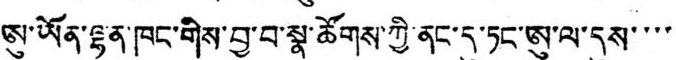ཨུ་ཡོན་ལྷན་ཁང་གིས་བྱ་བ་སྣ་ཚོགས་ཀྱི་ནང་དུ་ཏང་ཨུ་ལ་དུས་་་་
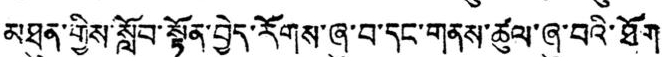མཐུན་གྱིས་སློབ་སྟོན་བྱེད་རོགས་ཞུ་བ་དང་གནས་ཚུལ་ཞུ་བའི་ཐོག
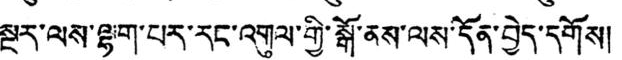སྔར་ལས་ལྷག་པར་རང་འགུལ་གྱི་སྒོ་ནས་ལས་དོན་བྱེད་དགོས།
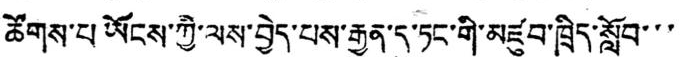ཚོགས་པ་ཡོངས་ཀྱི་ལས་བྱེད་པས་རྒྱུན་དུ་ཏང་གི་མཛུབ་ཁྲིད་སློབ་་་
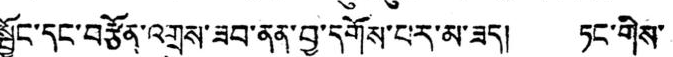སྦྱོང་དང་བརྩོན་འགྲུས་ཟབ་ནན་བྱ་དགོས་པར་མ་ཟད། ཏང་གིས་
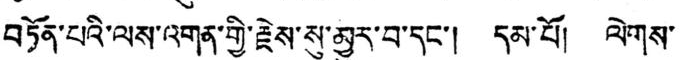བཏོན་པའི་ལས་འགན་གྱི་རྗེས་སུ་མྱུར་བ་དང་། དམ་པོ། ལེགས་
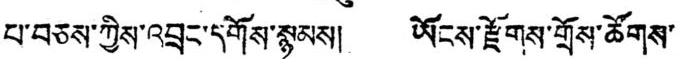པ་བཅས་ཀྱིས་འབྲང་དགོས་སྙམས། ཡོངས་རྫོགས་གྲོས་ཚོགས་
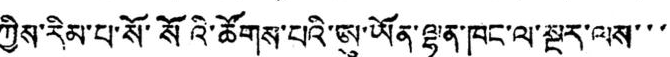ཀྱིས་རིམ་པ་སོ་སོའི་ཚོགས་པའི་ཨུ་ཡོན་ལྷན་ཁང་ལ་སྔར་ལས་་་
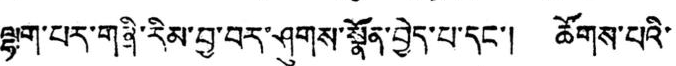ལྷག་པར་གཞི་རིམ་བྱ་བར་ཤུགས་སྣོན་བྱེད་པ་དང་། ཚོགས་པའི་
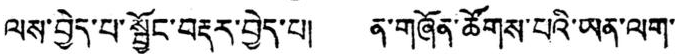ལས་བྱེད་པ་སྦྱོང་བརྡར་བྱེད་པ། ན་གཞོན་ཚོགས་པའི་ཡན་ལག་
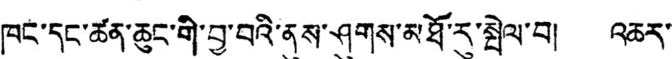ཁང་དང་ཚན་ཆུང་གི་བྱ་བའི་ནུས་ཤུགས་མཐོ་རུ་སྤེལ་བ། འཆར་
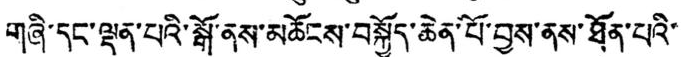གཞི་དང་ལྡན་པའི་སྒོ་ནས་མཆོངས་བསྐྱོད་ཆེན་པོ་བྱས་ནས་ཐོན་པའི་
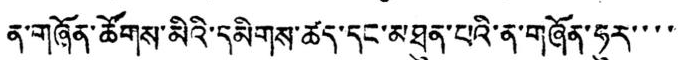ན་གཞོན་ཚོགས་མིའི་དམིགས་ཚད་དང་མཐུན་པའི་ན་གཞོན་ཧུར་་་་
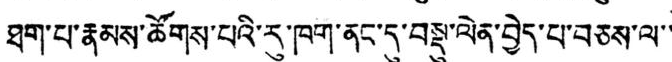ཐག་པ་རྣམས་ཚོགས་པའི་རུ་ཁག་ནང་དུ་བསྡུ་ལེན་བྱེད་པ་བཅས་ལ་་
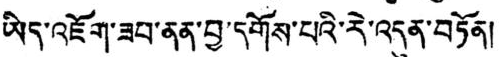ཡིད་འཇོག་ཟབ་ནན་བྱ་དགོས་པའི་རེ་འདུན་བཏོན།
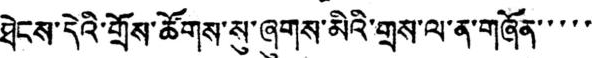ཐེངས་དེའི་གྲོས་ཚོགས་སུ་ཞུགས་མིའི་གྲས་ལ་ན་གཞོན་་་་་
